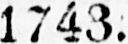1743.
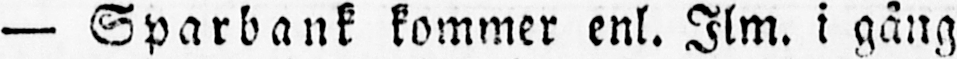— Sparbank kommer enl. Ilm. i gång
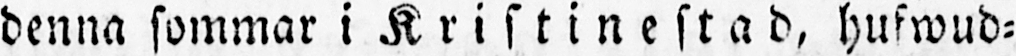denna sommar i K r i s t i n e s t a d, hufwud-
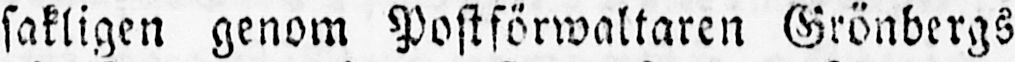sakligen genom Postförwaltaren Grönbergs
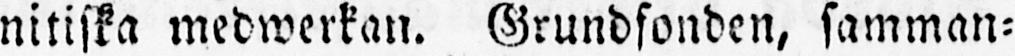nitiska medwerkan. Grundfonden, samman-
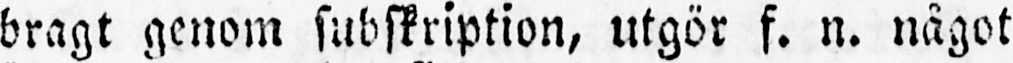bragt genom subskription, utgör f. n. något
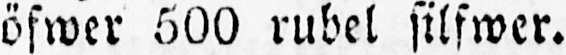öfwer 500 rubel silfwer.
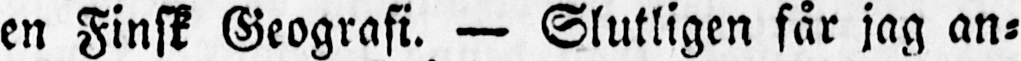en Finsk Geografi. — Slutligen får jag an-
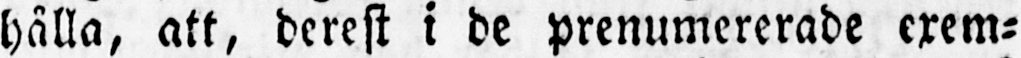hålla, att, derest i de prenumererade exem-
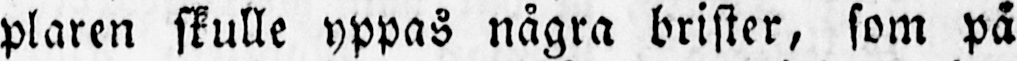plaren skulle yppas några brister, som på
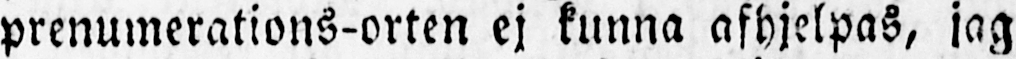prenumerations-orten ej kunna afhjelpas, jag
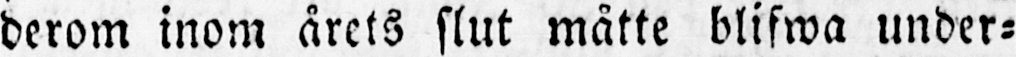derom inom årets slut måtte blifwa under-
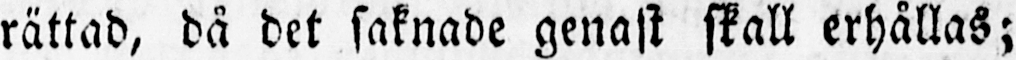rättad, då det saknade genast skall erhållas;
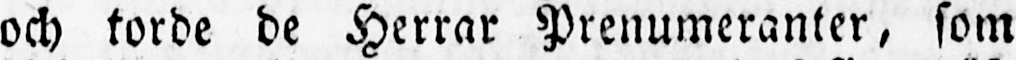och torde de Herrar Prenumeranter, som
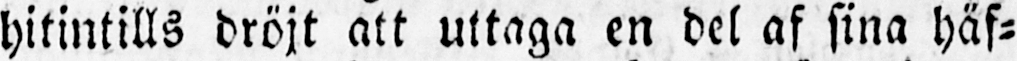hitintills dröjt att uttaga en del af sina häf-
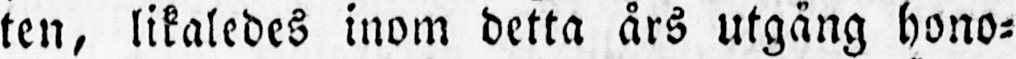ten, likaledes inom detta års utgång hono-
